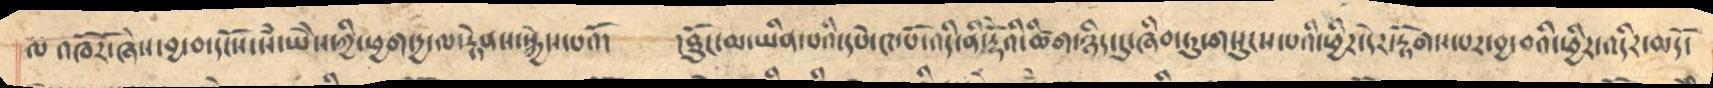ལ  འཁོརོ་ཞེས་བྱ་བ་དངོས་སཾ་ཡེེས་ཀྱི་ཕྱག་དྱ་ལ་རྟེནས་སྐྱེས་པའོ།   །ཐོུང་མ་ཡིན་པའི་དཔེ་༩་པོ་འདི་ནི་རྡོེའི་ཚིག་ཉིད་དུ་ཞིབ་ཏུ་གསུངས་པའི་ཕྱིར་དེར་རྟོགས་པར་བྱ་བའི་ཕྱིར་འདིར་ཆདོ།
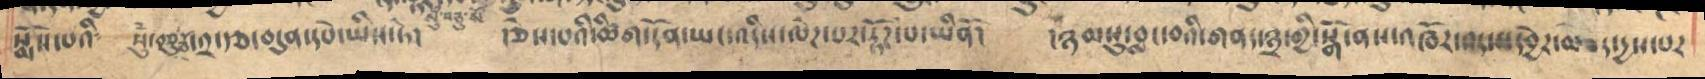སྨོས་པའི༴  སུཾ་བཅུ་རྩ་༢་རྩ་བདུན་དཔེ་ཡིས་ཏེ།   །ཅེས་པའི་ཚིག་དོན་ཡང་འདིས་ལེཌ་པར་རྟོཌ་པ་ཡིནོ།   །ཉམས་སུ་བླང་བའི་གནད་༣་གྱི་སྒོ་ནས་འཁོར་བར་སདབྱེར་མ་ཟད་དྱས་པར
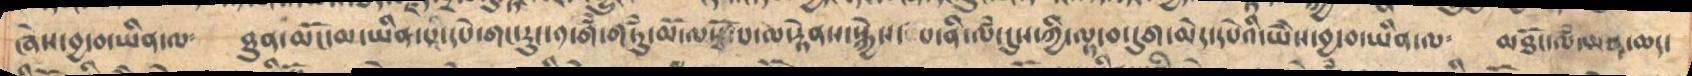ཞེས་བྱ་བ་ཡིན་ལ༴  ཐུན་མོང་མ་ཡིན་པ་དཔེ་གང་རུང་༡་གཾ་གཏུཾ་མོ་ལསྭོ་པ་ལ་རྟེནས་སྐྱེས་ པ་ནི་ལཾ་དུས་ཀྱི་ལྟ་བ་དུག་མེད་དཔེའིི་ཡེེས་བྱ་བ་ཡིན་ལ༴  མཐོང་ལཾ་མན་ཆད་
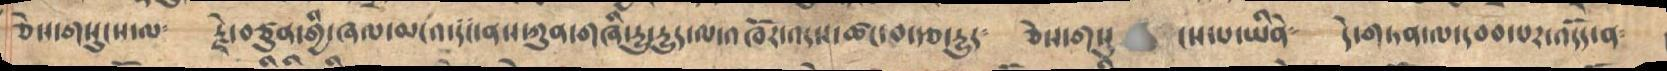ཅེསགསུངས་ལ༴   རྗེ་བཙུན་གྱི་ཞལ་མངའ་རང་ནས་ཀུན་གཞི་རྱུ་རྱུད་ལ་འཁོར་འདས་ཚང་བ་རྩ་རྱུད༴   ཅེས་གསུ   ངས་པ་ཡིནོ༴     དེ་གདན་ལ་དབབ་པར་འདོད་ན༴
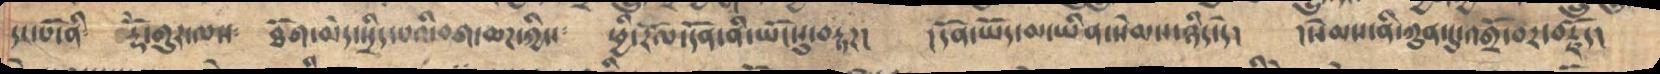དང་པོ་ནི༴    རྡོེ་གུར་ལས༴   ཐོག་མེད་སྲིད་པའི་བག་ཆཌ་ཀྱིས༴   ཕྱི་རོལ་དོན་ནི་ཡོངསུ་བརྟཌ།  །དོན་ཡོད་མ་ཡིན་སེམས་ཉིད་དེ།  །སེམས་ནི་ཀུནན་དུ་འགྲོ་བར་བརྗོད།
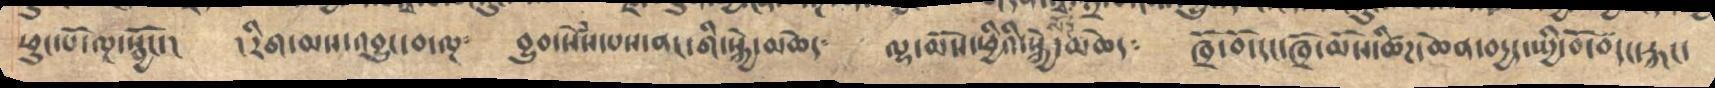ཕུང་ོ་ལྔ་སྦྱོང་།  ། རིག་མས་འབྱུང་བ་ལྔ༴  བྱུབ་སེཾས་པས་ནང་གི་སྐྱེ་མཆེད༴  ལྷ་མོས་ཕྱིའི་སྐྱེ་མཆེད༴  ཁྲོ་བོ་དང་ཁྲོ་མོས་ཚིཌ་ཆེན་བདྱད་སྤྱི་བོ་བ་དང་རྐང་
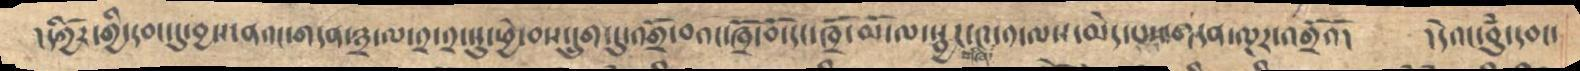། དཀྱིོར་གྱི་དབང་དུ་བྱས་ནའང་གདན་༣་ལ་༢་༢་སུ་ཕྱེ་བས་དྲུག་དུ་འགྲོ་བའང་ཁྲོ་བོ་དང་ཁྲོ་མོ་ལ་སྦྱར་༤་༡་ལས་མེད་པས་གཏན་ལྔར་འགྲོའོ།  །དེའང་བུཾ་དབང་
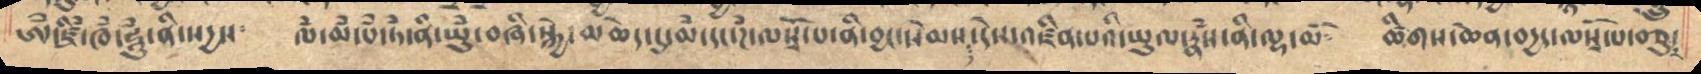ཨཾཛིཾ་ཁཾ་དྷཱུཾ་ནི་སདྱས༴  ལཾ་མཾ་པཾ་ཏཾ་ནཾ་ཡུཾ་བཞི་སྐྱེ་མཆེད་དུ་མཾ་དང་དཾ་ལསྭོ་པ་ནི་བྱང་སེམས་དེས་འཛིན་པའི་ཡུལ་རྣཾས་ནི་ལྷ་མོ༴  ཚིགས་ཆེན་བདྱད་ལསྭོ་པ་བཅུར་
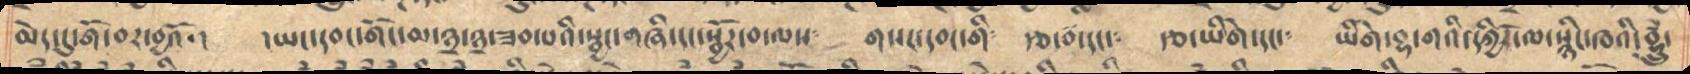མེད་དུ་གོ་བར་བྱའོ་།   །ཡང་དབང་དགོང་མ་༣་༣་ཟབ་པའི་སྦྱང་གཞི་དང་སྦྱོར་བ་ལས༴  གསང་དབང་གི༴ རྩ་བ་དང༴  དཙ་ཡིེག་དང༴  ཡིགེ་བྷ་གའི་དཀྱིོར་ལ་སྙིང་ཁའི་བྲུཾ་
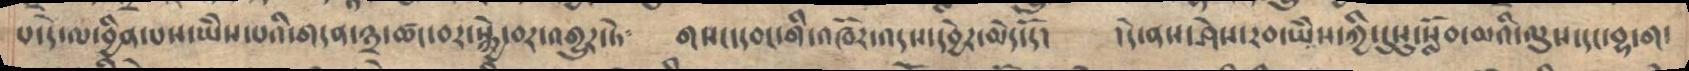པ་དེ་ལ་བྱིན་པས་ཡེེས་པའི་གདན་༣་ཚང་བར་སྐྱེ་བར་འགྱུར་ཏེ༴  གསང་དབང་གི་འཁོར་འདས་དབྱེར་མེད་དོ།   །དེ་ནས་ཤེས་རབ་ཡེེས་ཀྱི་དུསུ་སློབ་མའི་ལུས་དང་བྷ་ག་
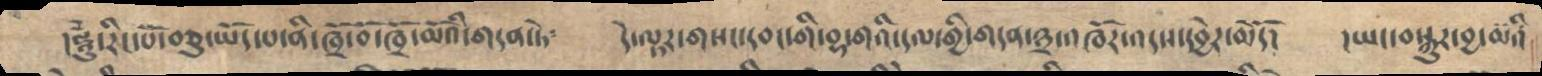།ཧཱུྃ་རིང་པོ་བཅུ་ཡོད་པ་ནི་ཁྲོ་བོ་ཁྲོ་མོའི་གདན་ཏེ༴  དེ་ལྟར་གསང་དབང་གི་བྷ་གའི་དལ་གྱི་གདན་༣་འཁོར་འདས་དབྱེར་མེདོ།  །ཡང་བསྐུར་བྱ་མའི
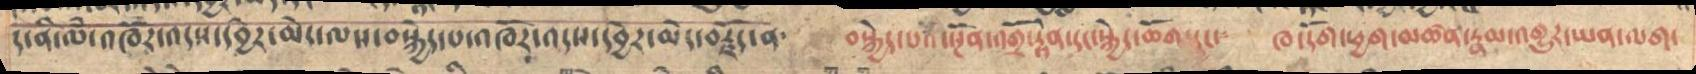ད་ནི་ལཾ་འཁོར་འདས་དབྱེར་མེད་ལས་བསྐྱེད་པ་འཁོར་འདས་དབྱེར་མེད་བརྗོད་ན༴  བསྐྱེད་པའི་སྔོན་འགྲོ་རྟེན་དང་སྐྱེད་ཆོག་དདང༴ ཁ་དོག་ཕྱག་མཚན་རྣམ་འགྱུར་ཡན་ལག་
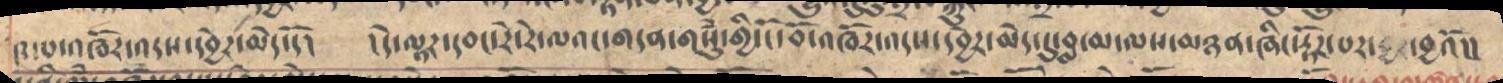༩་པ་འཁོར་འདས་དབྱེར་མེད་དོ།   །དེ་ལྟར་དབང་རེ་རེ་ལའང་གདན་གསུཾ་གྱི་ངོ་བོ་འཁོར་འདས་དབྱེར་མེད་དུ་བླ་མ་ལས་མཉན་ཞིང་རྟོཌ་པར་བྱར་བྱའོ།།
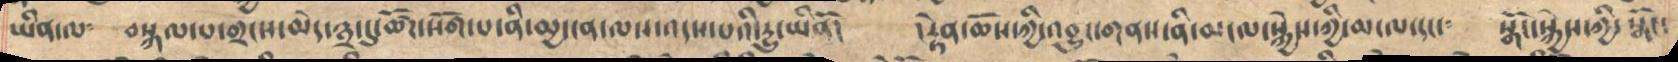ཡིན་ལ༴ བསྐལ་པ་གྲངས་མེད་༣་དུ་ཚོཌ་སོག་པ་ནི་མྱ་ངན་ལས་འདས་པའི་རྱུ་ཡིནོ། །རྟེན་ཆོས་ཀྱི་འབྱུང་གནས་ནི་མངལ་སྐྱེས་ཀྱི་མངལ་དང་༴ སྒོང་སྐྱེས་ཀྱི་སྒོང་
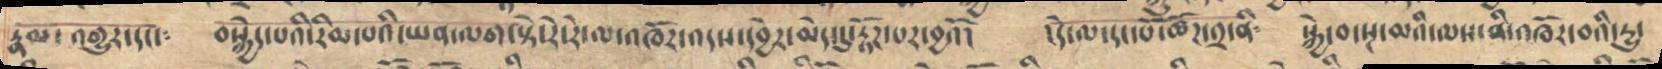རྣམ་འགྱུར་དང་༴ བསྐྱེད་པའི་རིམ་པའི་ཡན་ལག་སྟེ་རེ་རེ་ལ་འཁོར་འདས་དབྱེར་མེད་དུ་རྟོཌ་པར་བྱའོ། །དེ་ལ་དང་པོ་ཚོཌ་༢་ནི༴ སྐྱེ་བ་སྔ་མའི་ལས་ནི་འཁོར་བའི་རྱུ་
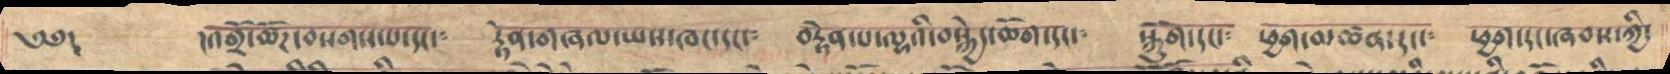༄༅། །འགྲོ་ཚོཌ་བསགས་པ་དང་༴ རྟེན་གཞལ་ཡས་ཁང་དང་༴ བརྟེན་པ་ལྷའི་བསྐྱེད་ཆོག་དང་༴ སྐོུག་དང་༴ ཕྱག་མཚན་དང་༴ ཕྱག་དང་ཞབས་ཀྱི་
